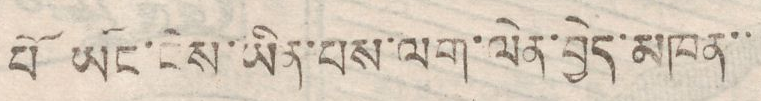པོ ཡོང་ངེས་ཡིན་པས་ལག་ལེན་བྱེད་མཁན་་
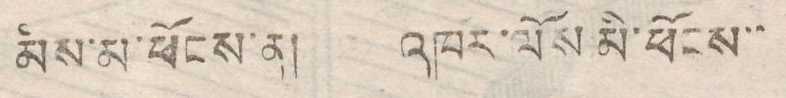མིས་མ་ཕོངས་ན། འཁོར་ལོས མི་ཕོངས་་
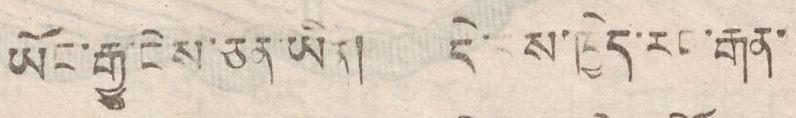ཡོང་རྒྱུ་ངེས་ཅན་ཡིན། དེ་ནས་ཁྱེད་རང་རྒན་
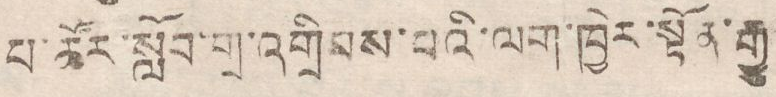པ་ཚོར་སློབ་གྲ་འགྲིབས་པའི་ལག་ཁྱེར་སྟོན་རྒྱུ
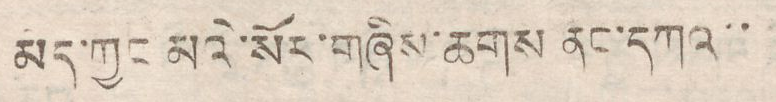མེད་ཀྱང མའི་སོར་གཞིས་ཆགས ནང་དཀའ་་
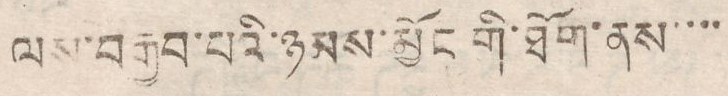ལས་བརྒྱབ་པའི་ཉམས་མྱོང་གི་ཐོག་ནས་་་་
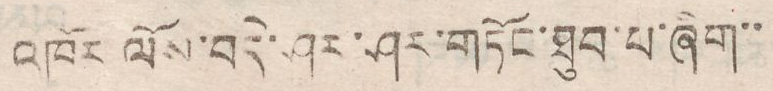འཁོར ལོས་བདེ་ཤར་ཤར་གཏོང་ཐུབ་པ་ཞིག་་
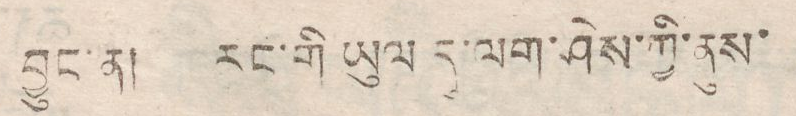བྱུང་ན། རང་གི ཡུལ དུ་ལག་ཤེས་ཀྱི་ནུས་
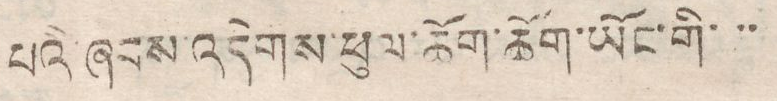པའི་ཞབས་འདེབས་ཕུལ་ཆོག་ཆོག་ཡོང་གི་་་
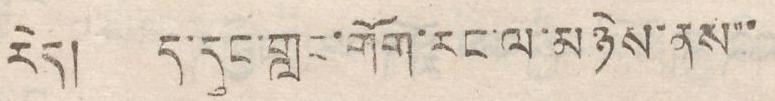རེད། ད་དུང་གླང་གོག་རང་ལ་མཉེས་ནས་་
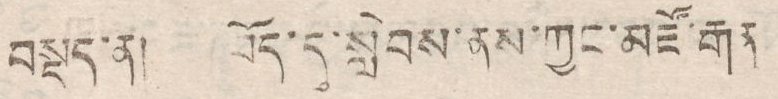བསྡད་ན། བོད་དུ་སླེབས་ནས་ཀྱང་མཛོ་རྒན
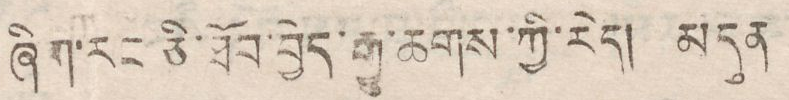ཞིག་རང་ཅི་ཐོབ་བྱེད་རྒྱུ་ཆགས་ཀྱི་རེད། མདུན
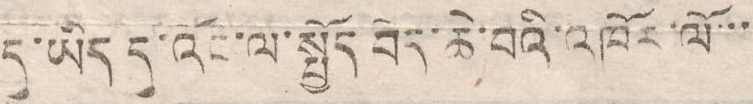དུ་ཡིད དུ་འོང་ལ་སྤྱོད་བེད་ཆེ་བའི་འཁོར་ལོ་་་
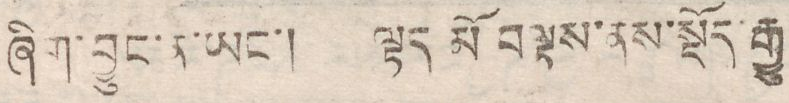ཞིག་བྱུང་ན་ཡང་། ལྟད་མོ བལྟས་ནས་སྡོད་རྒྱུ
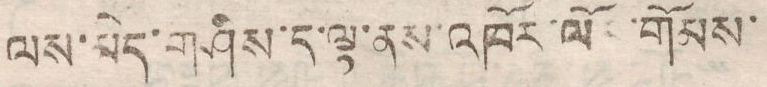ལས་མེད་གཤིས་ད་ལྟ་ནས་འཁོར་ལོ ་གོམས་
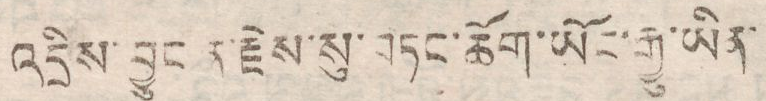འདྲིས་བྱུང ན་རྗེས་སུ་བཏང་ཆོག་ཡོང་རྒྱུ་ཡིན་
